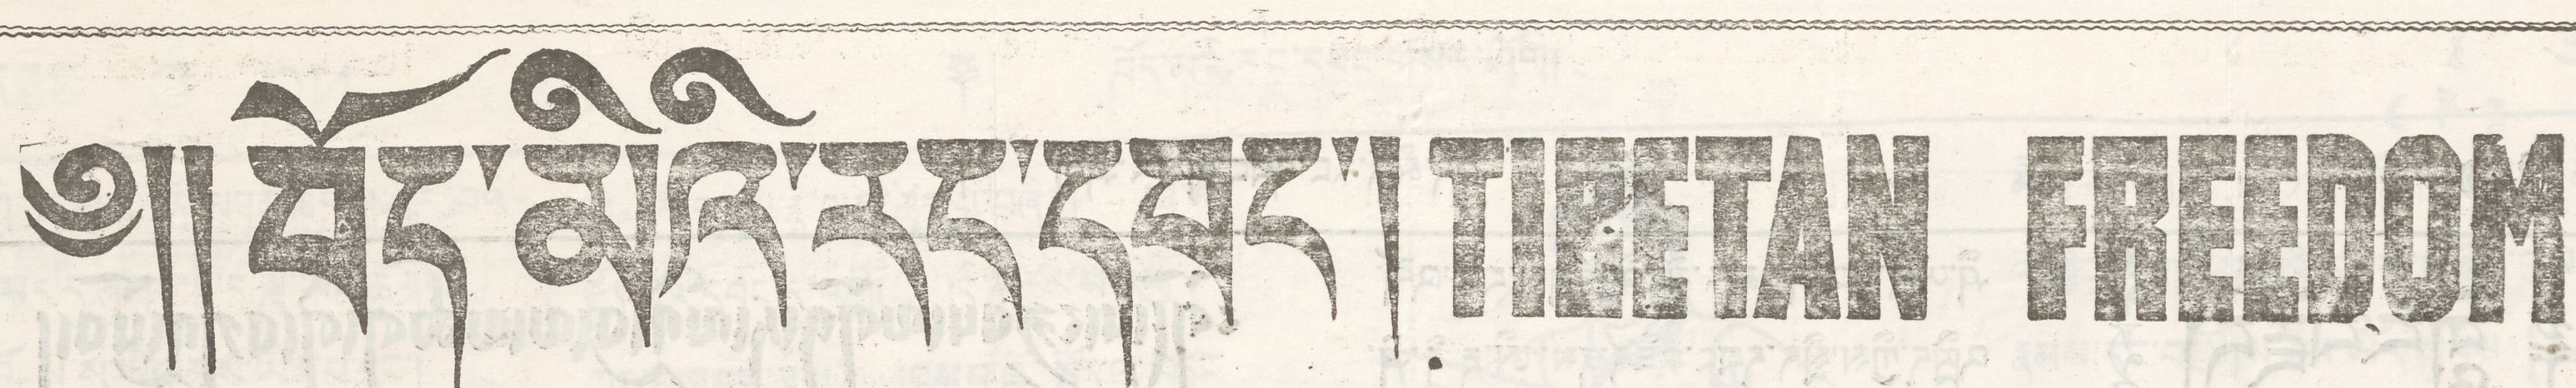༄།། བོད་མིའི་རང་དབང་། TIBETAN FREEDOM
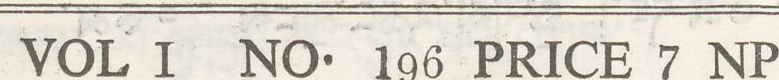VOL 1 NO. 196 PRICE 7 NP
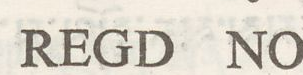REGD NO
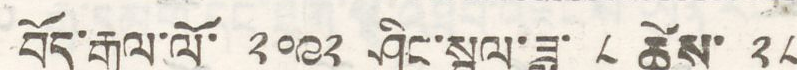བོད་རྒྱལ་ལོ་ ༢༠༩༢ ཤིང་སྦྲུལ་ཟླ་ ༨ ཚེས་ ༢༨
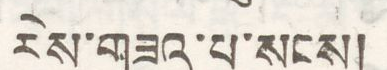རེས་གཟའ་པ་སངས།
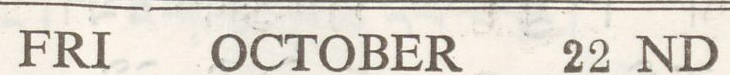FRI OCTOBER 22 ND
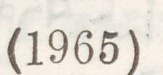(1965)
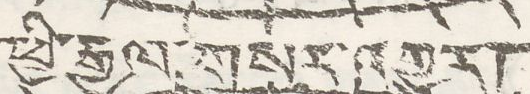ཕྱི་རྒྱལ་གསར་འགྱུར།
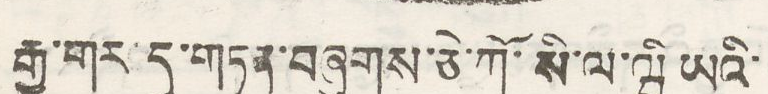རྒྱ་གར་དུ་གཏན་བཞུགས་ཅེ་ཀོ་སི་ལ་ཝི ཡའི་
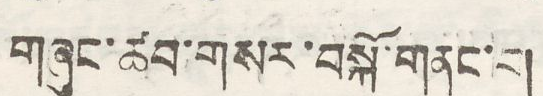གཞུང་ཚབ་གསར་བསྐོ་གནང་བ།
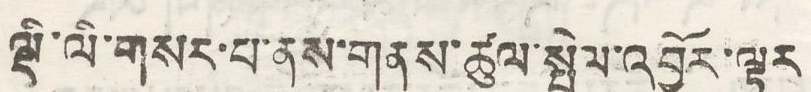ལྡི་ལི་གསར་པ་ནས་གནས་ཚུལ་སྤེལ་འབྱོར་ལྟར
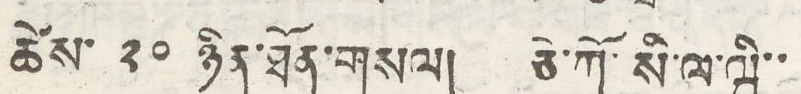ཚེས་ ༢༠ ཉིན་ཐོན་གསལ། ཅེ་ཀོ་སི་ལ་ཝི་་
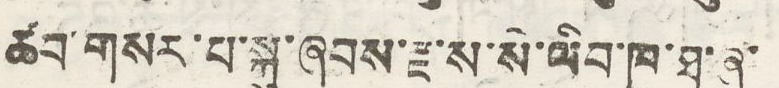ཚབ་གསར་པ་སྐུ་ཞབས་རྫ་ས་སེ་ལིབ་ཁུ་ཐ་ཞུ་
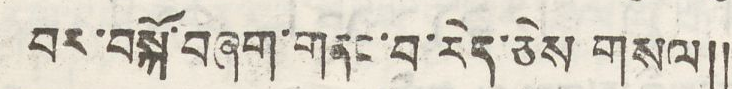བར་བསྐོ་བཞག་གནང་བ་རེད་ཅེས གསལ།།
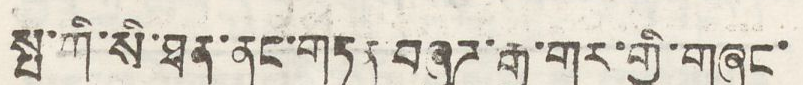སྤ་ཀི་སི་ཐན་ནང་གཏད་བཞུཌ་རྒྱ་གར་གྱི་གཞུང་
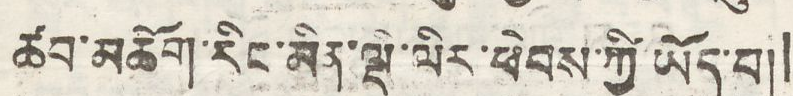ཚབ་མཆོག་རིང་མིན་ལྡི་ལིར་ཕེབས་ཀྱི་ཡོད་བ།།
